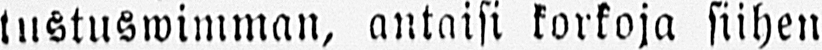tustuswimman, antaisi korkoja siihen
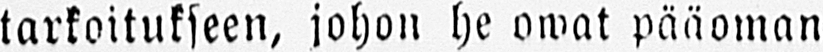tarkoitukseen, johon he owat pääoman
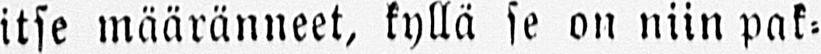itse määränneet, kyllä se on niin pak-
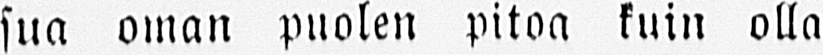sua oman puolen pitoa kuin olla
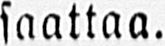saattaa.
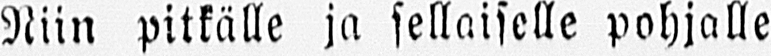Niin pitkälle ja sellaiselle pohjalle
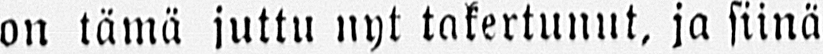on tämä juttu nyt takertunut, ja siinä
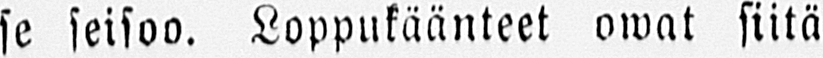se seisoo. Loppukäänteet owat siitä
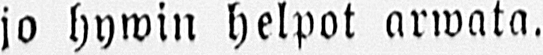jo hywin helpot arwata.
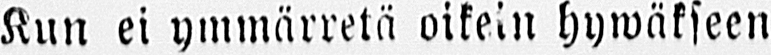Kun ei ymmärretä oikein hywäkseen
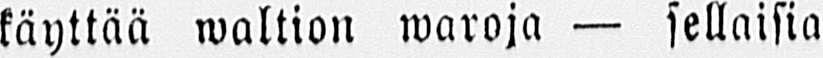käyttää waltion waroja — sellaisia
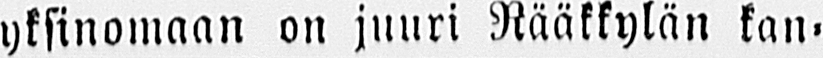yksinomaan on juuri Rääkkylän kan-
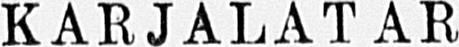KARJALATAR
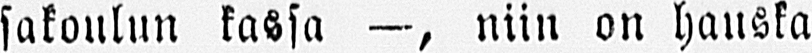sakoulun kassa —, niin on hauska
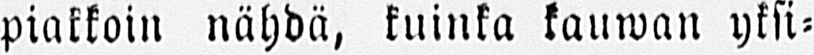piakkoin nähdä, kuinka kauwan yksi-
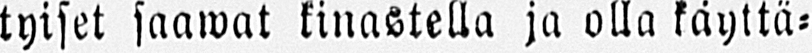tyiset saawat kinastella ja olla käyttä-
